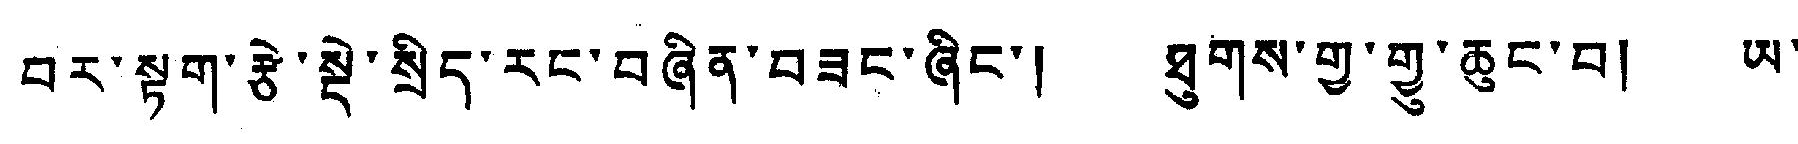བར་སྟག་རྩེ་སྡེ་སྲིད་རང་བཞིན་བཟང་ཞིང་། ཐུགས་གྱ་གྱུ་ཆུང་བ། ཡ་
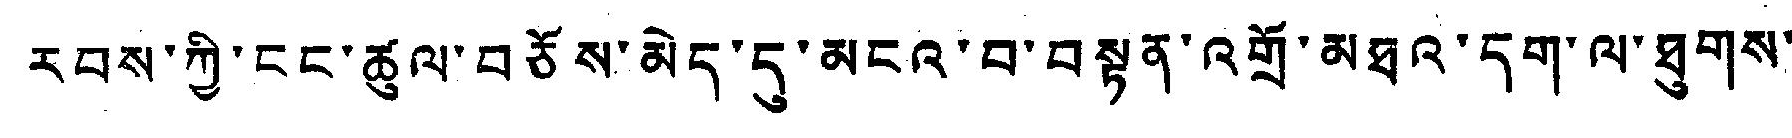རབས་ཀྱི་ངང་ཚུལ་བཅོས་མེད་དུ་མངའ་བ་བསྟན་འགྲོ་མཐའ་དག་ལ་ཐུགས་
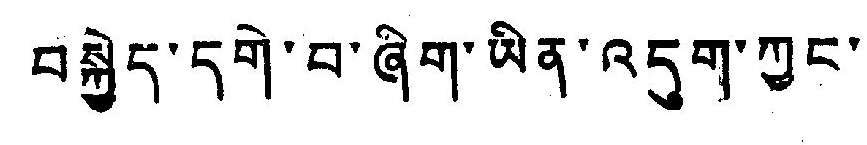བསྐྱེད་དགེ་བ་ཞིག་ཡིན་འདུག་ཀྱང་།
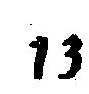13
